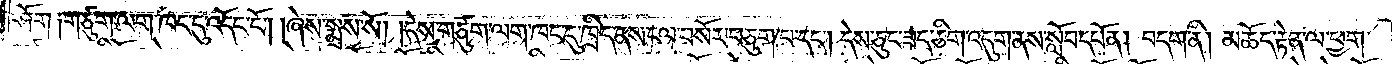ཤོག །གཙུག་ལག་ཁང་དུ་འདོང་ངོ༌། །ཞེས་སྨྲས་སོ། །དེས་གཙུག་ལག་ཁང་དུ་ཁྲིད་ནས་ངལ་བསོར་བཅུག་པ་དང༌། དེས་ཅུང་ཟད་ཅིག་འདུག་ནས་སློབ་དཔོན། བདག་ནི། མཆོད་རྟེན་ལ་ཕྱག་
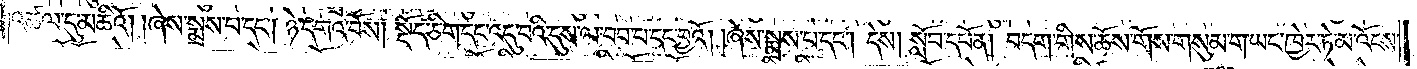འཚལ་དུ་མཆིའོ། །ཞེས་སྨྲས་པ་དང༌། ཉེ་དགའ་བོས། སྡོད་ཅིག་དང་འདུ་བའི་དུས་ལ་བབ་པ་དང་བྱའོ། །ཞེས་སྨྲས་པ་དང༌། དེས། སློབ་དཔོན། བདག་གིས་ཆོས་གོས་གསུམ་ག་ཡང་ཁྱེར་ཏེ་མ་འོངས་
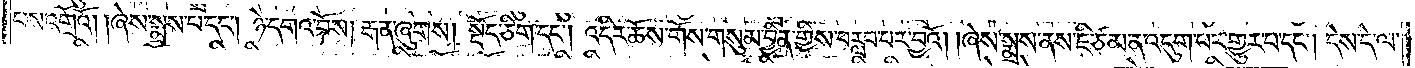པས་འགྲོའོ། །ཞེས་སྨྲས་པ་དང༌། ཉེ་དགའ་བོས། རྒན་ཞུགས། སྡོད་ཅིག་དང༌། འདིར་ཆོས་གོས་གསུམ་བྱིན་གྱིས་བརླབ་པར་བྱའོ། །ཞེས་སྨྲས་ནས་ཇི་ཙམ་ན་འདུག་པར་གྱུར་པ་དང༌། དེས་དེ་ལ་
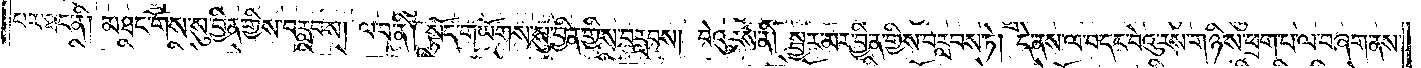པར་ཐང་ནི། མཐང་གོས་སུ་བྱིན་གྱིས་བརླབས། ལ་བ་ནི། སྟོད་གཡོགས་སུ་བྱིན་གྱིས་བརླབས། བེའུ་རས་ནི། སྦྱར་མར་བྱིན་གྱིས་བརླབས་ཏེ། དེ་ནས་ལ་བ་དང་བེའུ་རས་གཉིས་ཕྲག་པ་ལ་བཞག་ནས་
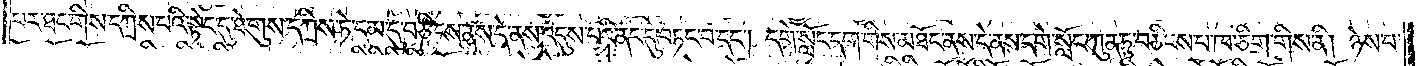པར་ཐང་གིས་དཀྲིས་པའི་སྟེང་དུ་ཐེ་གུས་དཀྲིས་ཏེ་དམ་དུ་བཅིངས་ནས་དེ་ནས་འདུས་པའི་ནང་དུ་བཏང་བ་དང༌། དགེ་སློང་དག་གིས་མཐོང་ནས་དེ་ནས་དགེ་སློང་ཀུན་ཏུ་བཅིངས་པ་ཁ་ཅིག་གིས་ནི། ཉེས་པ་
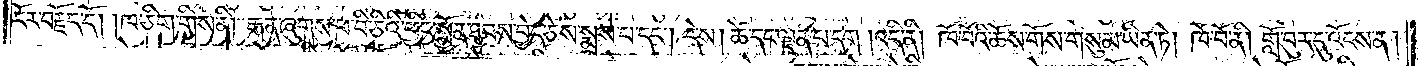ངོར་བརྗོད་དོ། །ཁ་ཅིག་གིས་ནི། རྒན་ཞུགས་ཕ་བི་ཅིའི་ཕྱིར་སྨྱོན་ཐབས་བྱེད་ཅེས་སྨྲས་པ་དང༌། དེས། ཚེ་དང་ལྡན་པ་དག །འདི་ནི། ཁོ་བོའི་ཆོས་གོས་གསུམ་ཡིན་ཏེ། ཁོ་བོ་ནི། གློ་བུར་དུ་འོངས་ན།
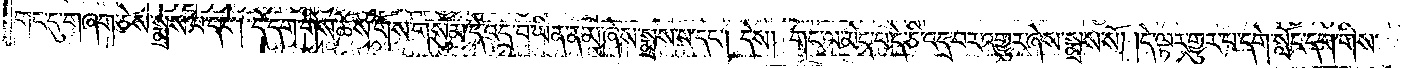གང་དུ་གཞག་ཅེས་སྨྲས་པ་དང༌། དེ་དག་གིས་ཆོས་གོས་གསུམ་དེ་འདྲ་བ་ཡིན་ནམ་ཞེས་སྨྲས་པ་དང༌། དེས། གང་ལ་མེད་པ་དེ་ཅི་འདྲ་བར་འགྱུར་ཞེས་སྨྲས་སོ། །དེ་ལྟར་གྱུར་པ་དགེ་སློང་དག་གིས་
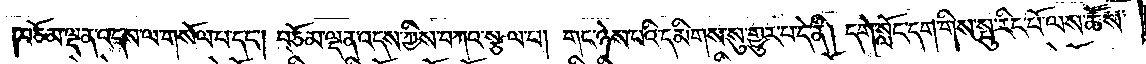བཅོམ་ལྡན་འདས་ལ་གསོལ་པ་དང༌། བཅོམ་ལྡན་འདས་ཀྱིས་བཀའ་སྩལ་པ། གང་ཉེས་པའི་དམིགས་སུ་གྱུར་པ་དེ་ནི། དགེ་སློང་དག་གིས་སྤུ་རིང་པོ་ལས་ཆོས་
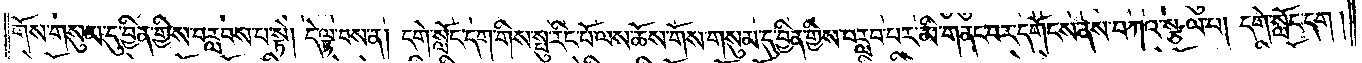གོས་གསུམ་དུ་བྱིན་གྱིས་བརླབས་པ་སྟེ། དེ་ལྟ་བས་ན། དགེ་སློང་དག་གིས་སྤུ་རིང་པོ་ལས་ཆོས་གོས་གསུམ་དུ་བྱིན་གྱིས་བརླབ་པར་མི་གནང་བར་དགོངས་ནས་བཀའ་སྩལ་པ། དགེ་སློང་དག །
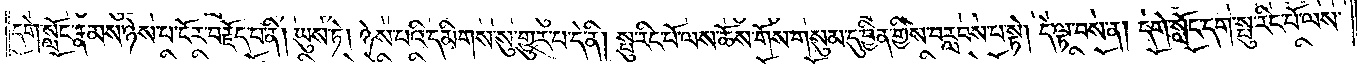དགེ་སློང་རྣམས་ཉེས་པ་ངོར་བརྗོད་པ་ནི། ཡུས་ཏེ། ཉེས་པའི་དམིགས་སུ་གྱུར་པ་དེ་ནི། སྤུ་རིང་པོ་ལས་ཆོས་གོས་གསུམ་དུ་བྱིན་གྱིས་བརླབས་པ་སྟེ། དེ་ལྟ་བས་ན། དགེ་སློང་དག་སྤུ་རིང་པོ་ལས་
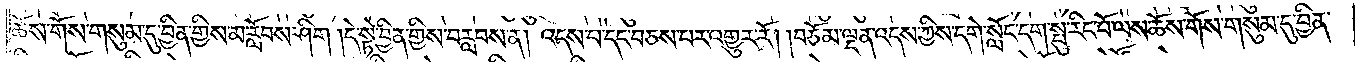ཆོས་གོས་གསུམ་དུ་བྱིན་གྱིས་མ་རློབས་ཤིག །དེ་སྟེ་བྱིན་གྱིས་བརླབས་ན། འདས་པ་དང་བཅས་པར་འགྱུར་རོ། །བཅོམ་ལྡན་འདས་ཀྱིས་དགེ་སློང་དག་སྤུ་རིང་པོ་ལས་ཆོས་གོས་གསུམ་དུ་བྱིན་
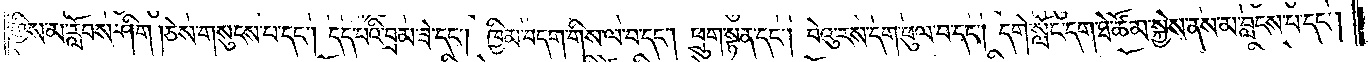གྱིས་མ་རློབས་ཤིག །ཅེས་གསུངས་པ་དང༌། དད་པའི་བྲམ་ཟེ་དང༌། ཁྱིམ་བདག་གིས་ལ་བ་དང༌། ཕྲུག་སྟན་དང༌། བེའུ་རས་དག་ཕུལ་བ་དང༌། དགེ་སློང་དག་ཐེ་ཚོམ་སྐྱེས་ནས་མ་བླངས་པ་དང༌།
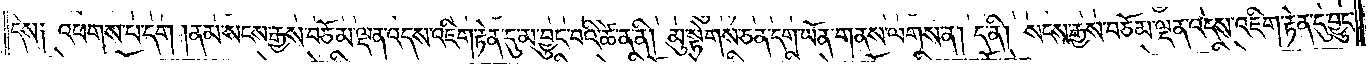དེས། འཕགས་པ་དང༌། ནམ་སངས་རྒྱས་བཅོམ་ལྡན་འདས་འཇིག་རྟེན་དུ་མ་བྱུང་བའི་ཚེ་ན་ནི། མུ་སྟེགས་ཅན་དག་ཡོན་གནས་ལགས་ན། ད་ནི། སངས་རྒྱས་བཅོམ་ལྡན་འདས་འཇིག་རྟེན་དུ་བྱུང་
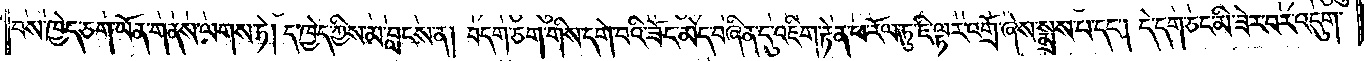བས་ཁྱེད་ཅག་ཡོན་གནས་ལགས་ཏེ། ད་ཁྱེད་ཀྱིས་མ་བླངས་ན། བདག་ཅག་གིས་དགེ་བའི་ཟོང་མེད་བཞིན་དུ་འཇིག་རྟེན་ཕ་རོལ་ཏུ་ཇི་ལྟར་འགྲོ་ཞེས་སྨྲས་པ་དང༌། དེ་དག་ཅང་མི་ཟེར་བར་འདུག་
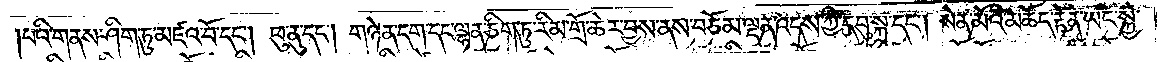པའི་གནས་ཤིག་ཏུ་མཛའ་བོ་དང༌། ཕུ་ནུ་དང༌། གཉེན་དག་དང་ལྷན་ཅིག་ཏུ་རིམ་གྲོ་ཆེར་བྱས་ནས་བཅོམ་ལྡན་འདས་ཀྱི་དབུ་སྐྲ་དང༌། སེན་མོའི་མཆོད་རྟེན་ཡང་སྐྱེ་
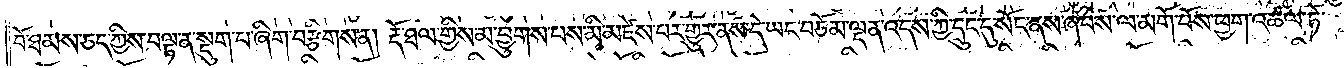བོ་ཐམས་ཅད་ཀྱིས་བལྟ་ན་སྡུག་པ་ཞིག་བརྩིགས་ན། རྡོ་ཐལ་གྱིས་མ་བྱུགས་པས་མི་མཛེས་པར་གྱུར་ནས་དེ་ཡང་བཅོམ་ལྡན་འདས་ཀྱི་དྲུང་དུ་སོང་ནས་ཞབས་ལ་མགོ་བོས་ཕྱག་འཚལ་ཏེ།
